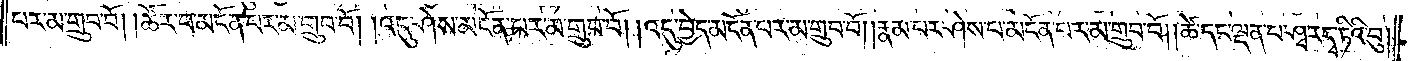པར་མ་གྲུབ་བོ། །ཚོར་བ་མངོན་པར་མ་གྲུབ་བོ། །འདུ་ཤེས་མངོན་པར་མ་གྲུབ་བོ། །འདུ་བྱེད་མངོན་པར་མ་གྲུབ་བོ། །རྣམ་པར་ཤེས་པ་མངོན་པར་མ་གྲུབ་བོ། །ཚེ་དང་ལྡན་པ་ཤཱ་ར་དྭ་ཏིའི་བུ།
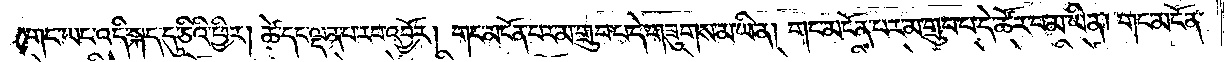གང་ཡང་འདི་སྐད་དུ་ཅིའི་ཕྱིར། ཚེ་དང་ལྡན་པ་རབ་འབྱོར། གང་མངོན་པར་མ་གྲུབ་པ་དེ་གཟུགས་མ་ཡིན། གང་མངོན་པར་མ་གྲུབ་པ་དེ་ཚོར་བ་མ་ཡིན། གང་མངོན་
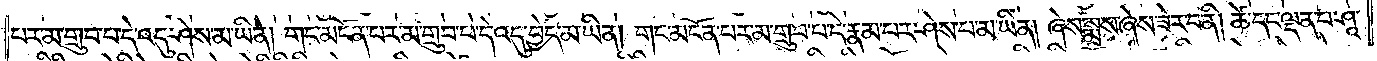པར་མ་གྲུབ་པ་དེ་འདུ་ཤེས་མ་ཡིན། གང་མངོན་པར་མ་གྲུབ་པ་དེ་འདུ་བྱེད་མ་ཡིན། གང་མངོན་པར་མ་གྲུབ་པ་དེ་རྣམ་པར་ཤེས་པ་མ་ཡིན། ཞེས་སྨྲས་ཞེས་ཟེར་བ་ནི། ཚེ་དང་ལྡན་པ་ཤཱ་
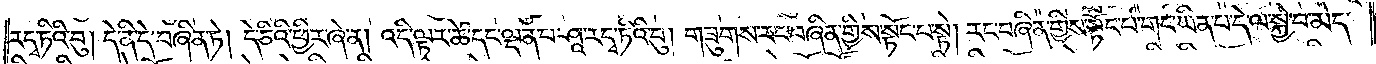ར་དྭ་ཏིའི་བུ། དེ་ནི་དེ་བཞིན་ཏེ། དེ་ཅིའི་ཕྱིར་ཞེ་ན། འདི་ལྟར་ཚེ་དང་ལྡན་པ་ཤཱ་ར་དྭ་ཏིའི་བུ། གཟུགས་རང་བཞིན་གྱིས་སྟོང་པ་སྟེ། རང་བཞིན་གྱིས་སྟོང་པ་གང་ཡིན་པ་དེ་ལ་སྐྱེ་བ་མེད་
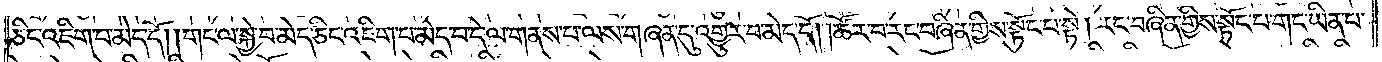ཅིང་འཇིག་པ་མེད་དོ། །གང་ལ་སྐྱེ་བ་མེད་ཅིང་འཇིག་པ་མེད་པ་དེ་ལ་གནས་པ་ལས་གཞན་དུ་འགྱུར་བ་མེད་དོ། །ཚོར་བ་རང་བཞིན་གྱིས་སྟོང་པ་སྟེ། རང་བཞིན་གྱིས་སྟོང་པ་གང་ཡིན་པ་
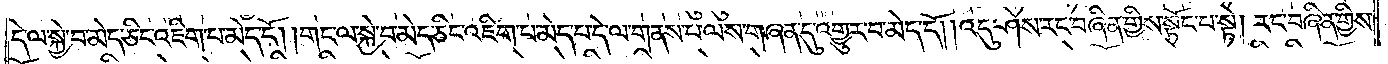དེ་ལ་སྐྱེ་བ་མེད་ཅིང་འཇིག་པ་མེད་དོ། །གང་ལ་སྐྱེ་བ་མེད་ཅིང་འཇིག་པ་མེད་པ་དེ་ལ་གནས་པ་ལས་གཞན་དུ་འགྱུར་བ་མེད་དོ། །འདུ་ཤེས་རང་བཞིན་གྱིས་སྟོང་པ་སྟེ། རང་བཞིན་གྱིས་
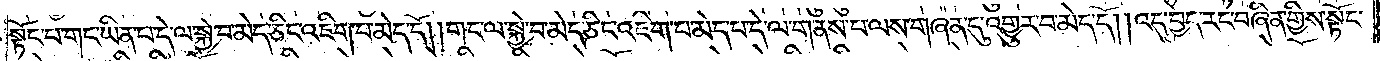སྟོང་པ་གང་ཡིན་པ་དེ་ལ་སྐྱེ་བ་མེད་ཅིང་འཇིག་པ་མེད་དོ། །གང་ལ་སྐྱེ་བ་མེད་ཅིང་འཇིག་པ་མེད་པ་དེ་ལ་གནས་པ་ལས་གཞན་དུ་འགྱུར་བ་མེད་དོ། །འདུ་བྱེད་རང་བཞིན་གྱིས་སྟོང་
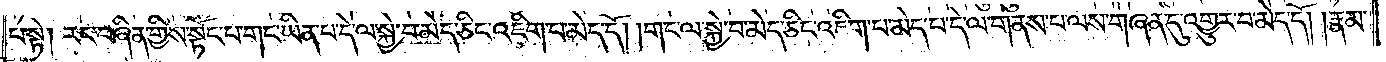པ་སྟེ། རང་བཞིན་གྱིས་སྟོང་པ་གང་ཡིན་པ་དེ་ལ་སྐྱེ་བ་མེད་ཅིང་འཇིག་པ་མེད་དོ། །གང་ལ་སྐྱེ་བ་མེད་ཅིང་འཇིག་པ་མེད་པ་དེ་ལ་གནས་པ་ལས་གཞན་དུ་འགྱུར་བ་མེད་དོ༑ ༑རྣམ་
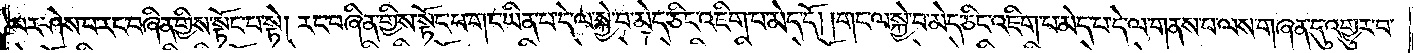པར་ཤེས་པ་རང་བཞིན་གྱིས་སྟོང་པ་སྟེ། རང་བཞིན་གྱིས་སྟོང་པ་གང་ཡིན་པ་དེ་ལ་སྐྱེ་བ་མེད་ཅིང་འཇིག་པ་མེད་དོ། །གང་ལ་སྐྱེ་བ་མེད་ཅིང་འཇིག་པ་མེད་པ་དེ་ལ་གནས་པ་ལས་གཞན་དུ་འགྱུར་བ་
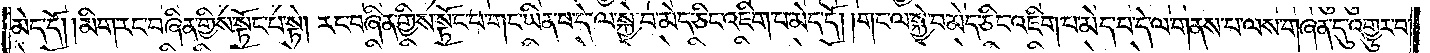མེད་དོ། །མིག་རང་བཞིན་གྱིས་སྟོང་པ་སྟེ། རང་བཞིན་གྱིས་སྟོང་པ་གང་ཡིན་པ་དེ་ལ་སྐྱེ་བ་མེད་ཅིང་འཇིག་པ་མེད་དོ། །གང་ལ་སྐྱེ་བ་མེད་ཅིང་འཇིག་པ་མེད་པ་དེ་ལ་གནས་པ་ལས་གཞན་དུ་འགྱུར་བ་
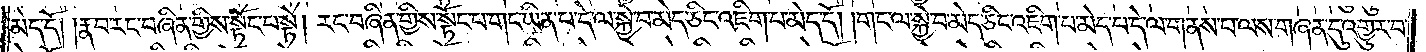མེད་དོ། །རྣ་བ་རང་བཞིན་གྱིས་སྟོང་པ་སྟེ། རང་བཞིན་གྱིས་སྟོང་པ་གང་ཡིན་པ་དེ་ལ་སྐྱེ་བ་མེད་ཅིང་འཇིག་པ་མེད་དོ། །གང་ལ་སྐྱེ་བ་མེད་ཅིང་འཇིག་པ་མེད་པ་དེ་ལ་གནས་པ་ལས་གཞན་དུ་འགྱུར་བ་
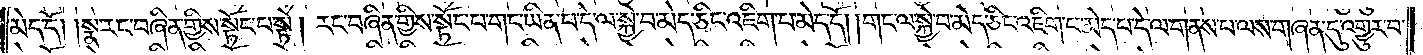མེད་དོ། །སྣ་རང་བཞིན་གྱིས་སྟོང་པ་སྟེ། རང་བཞིན་གྱིས་སྟོང་པ་གང་ཡིན་པ་དེ་ལ་སྐྱེ་བ་མེད་ཅིང་འཇིག་པ་མེད་དོ། །གང་ལ་སྐྱེ་བ་མེད་ཅིང་འཇིག་པ་མེད་པ་དེ་ལ་གནས་པ་ལས་གཞན་དུ་འགྱུར་བ་
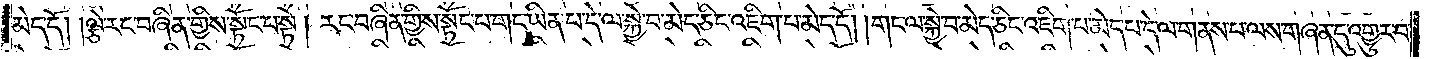མེད་དོ། །ལྕེ་རང་བཞིན་གྱིས་སྟོང་པ་སྟེ། རང་བཞིན་གྱིས་སྟོང་པ་གང་ཡིན་པ་དེ་ལ་སྐྱེ་བ་མེད་ཅིང་འཇིག་པ་མེད་དོ། །གང་ལ་སྐྱེ་བ་མེད་ཅིང་འཇིག་པ་མེད་པ་དེ་ལ་གནས་པ་ལས་གཞན་དུ་འགྱུར་བ་
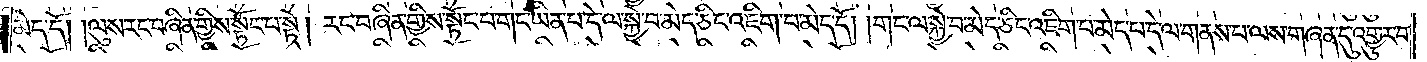མེད་དོ། །ལུས་རང་བཞིན་གྱིས་སྟོང་པ་སྟེ། རང་བཞིན་གྱིས་སྟོང་པ་གང་ཡིན་པ་དེ་ལ་སྐྱེ་བ་མེད་ཅིང་འཇིག་པ་མེད་དོ། །གང་ལ་སྐྱེ་བ་མེད་ཅིང་འཇིག་པ་མེད་པ་དེ་ལ་གནས་པ་ལས་གཞན་དུ་འགྱུར་བ་
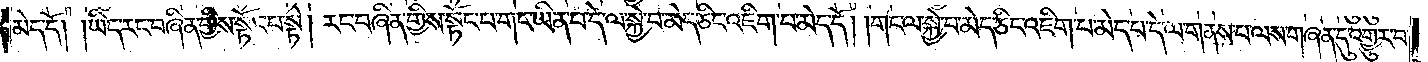མེད་དོ། །ཡིད་རང་བཞིན་གྱིས་སྟོང་པ་སྟེ། རང་བཞིན་གྱིས་སྟོང་པ་གང་ཡིན་པ་དེ་ལ་སྐྱེ་བ་མེད་ཅིང་འཇིག་པ་མེད་དོ། །གང་ལ་སྐྱེ་བ་མེད་ཅིང་འཇིག་པ་མེད་པ་དེ་ལ་གནས་པ་ལས་གཞན་དུ་འགྱུར་བ་
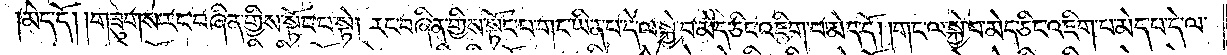མེད་དོ། །གཟུགས་རང་བཞིན་གྱིས་སྟོང་པ་སྟེ། རང་བཞིན་གྱིས་སྟོང་པ་གང་ཡིན་པ་དེ་ལ་སྐྱེ་བ་མེད་ཅིང་འཇིག་པ་མེད་དོ། །གང་ལ་སྐྱེ་བ་མེད་ཅིང་འཇིག་པ་མེད་པ་དེ་ལ་
